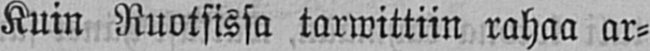Kuin Ruotsissa tarwittiin rahaa ar-
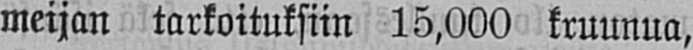meijan tarkoituksiin 15,000 kruunua,
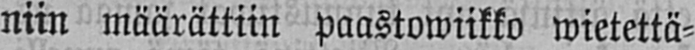niin määrättiin paastowiikko wietettä-
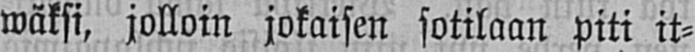wäksi, jolloin jokaisen sotilaan piti it-
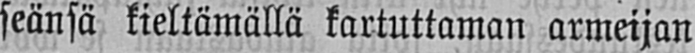seänsä kieltämällä kartuttaman armeijan
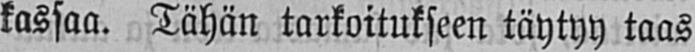kassaa. Tähän tarkoitukseen täytyy taas
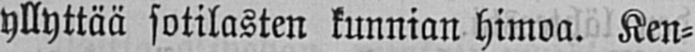yllyttää sotilasten kunnian himoa. Ken-
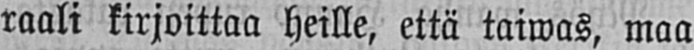raali kirjoittaa heille, että taiwas, maa
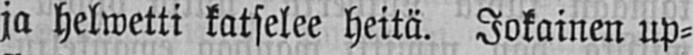ja helwetti katselee heitä. Jokainen up-
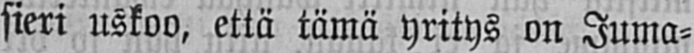sieri uskoo, että tämä yritys on Juma-
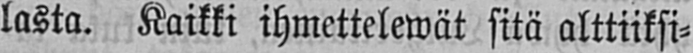lasta. Kaikki ihmettelewät sitä alttiiksi-
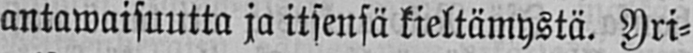antawaisuutta ja itsensä kieltämystä. Yri-
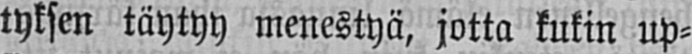tyksen täytyy menestyä, jotta kukin up-
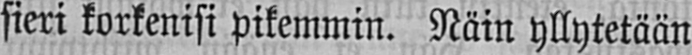sieri korkenisi pikemmin. Näin yllytetään
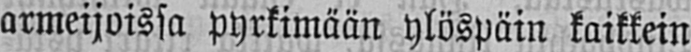armeijoissa pyrkimään ylöspäin kaikkein
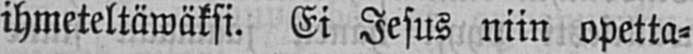ihmeteltäwäksi. Ei Jesus niin opetta-
